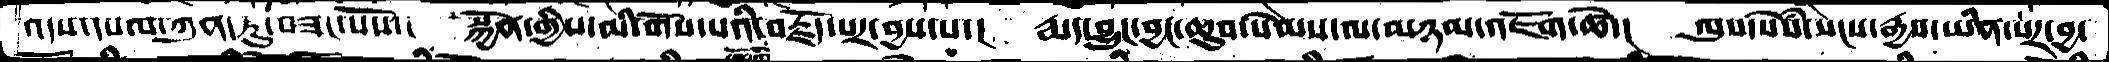འདས་དཔལ་ཀུན་ཏུ་བཟང་པོས་།  སྐྱོན་གྱིས་མི་གོས་པའི་བརྗོད་པར་བྱས་པ་།  རྨད་བྱུང་བྱང་ཆུབ་སེམས་ལ་མཉམ་འཇོག་ཚེ་།  ལུས་སེཾས་སངས་རྒྱས་ཡིན་པར་བྱ་
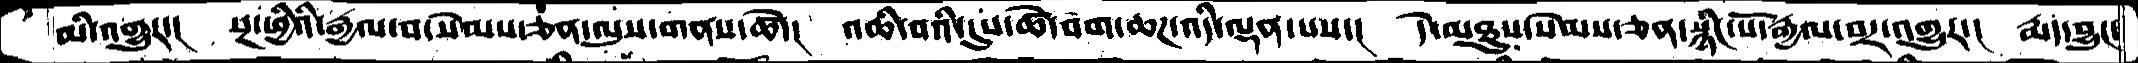མི་འགྱུར་།  སྔ་ཕྱིའི་རྒྱལ་བ་སེམས་ཅན་ལུས་གནས་ཚེ་།  འཆི་བའི་དུས་ཚེ་བག་ཆཌ་འདི་ལྡན་པས་།  དེ་མཐུས་སེམས་ཅན་སྙིང་པོ་རྒྱལ་བར་འགྱུར་།  རྨད་བྱུང་
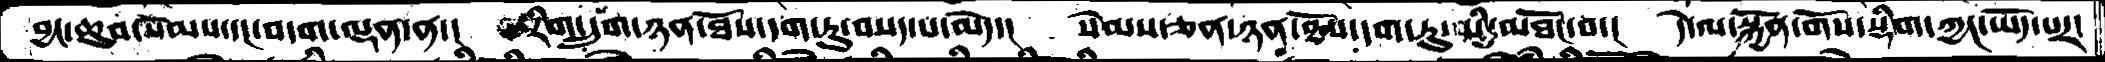བྱང་ཆུབ་སེམས་དང་བདག་ལྡན་ན་།  རིག་དྲུག་ཉན་ཐོས་དག་ཏུ་བསད་པ་མེད་།  སེམས་ཅན་ཉན་ཐོས་དག་ཏུ་མི་མཐོང་བ་།  དེ་ལ་སྐྱོན་གོས་སྡིག་ཀྱང་ཡོད་པར་
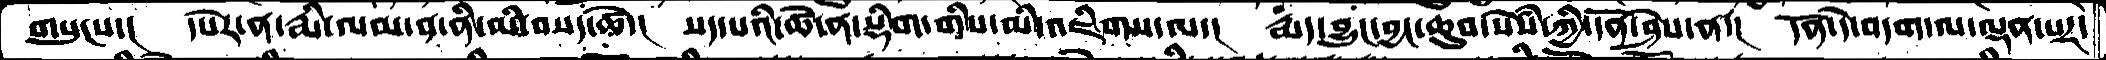གསུངས་།   དཔེར་ན་རྨི་ལམ་ན་ནི་མི་བསད་ཚེ་།  སད་པའི་ཚེ་ན་སྡིག་གིས་མི་འཇིགས་ལ་།  རྨད་བྱུང་བྱང་ཆུབ་སེཾས་ཀྱི་དོན་ཤེས་ན་།  དོན་དེ་བདག་ལ་ལྡན་པར་
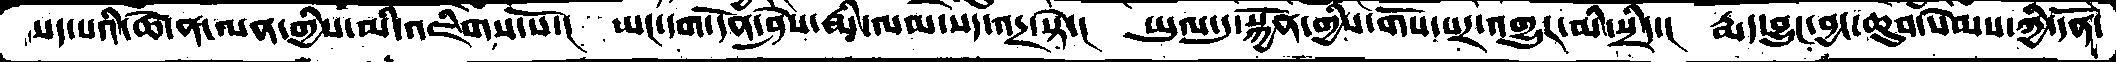སད་པའི་ཚེ་ན་ལན་གྱིས་མི་འཇིགས་སོ་།  ཡང་དག་དོན་ཤེས་རྨི་ལམ་སད་འདྲ་སྟེ་།  ཡུལ་དུ་སྐྱོན་གྱིས་གོས་པར་འགྱུར་མི་སྲིད་། རྨད་བྱུང་བྱང་ཆུབ་སེམས་ཀྱི་དོན་
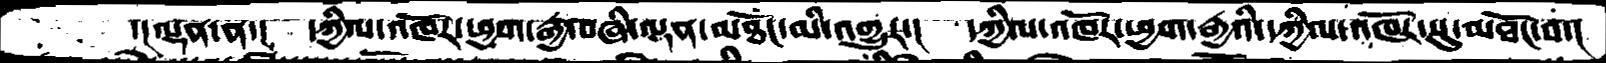་།ལྡན་ན་།  དཀྱིལ་འཁོར་ཕྱག་རྒྱ་བཞི་ལྡན་མཐོང་མི་འགྱུར་།  དཀྱིལ་འཁོར་ཕྱག་རྒྱའི་དཀྱིལ་འཁོར་སུ་མཐོང་བ་།
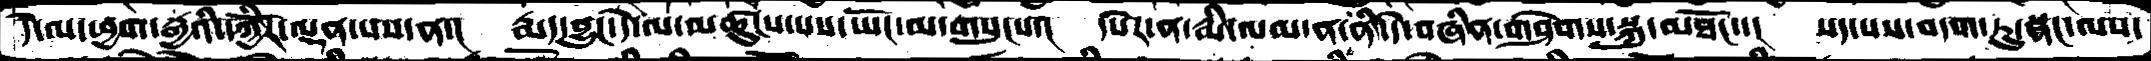དེ་ལ་ཕྱག་རྒྱའི་དཀྱིོར་ལྡན་པས་ན་།   རྨད་བྱུང་དེ་ལ་མཚུངས་པས་ཡོང་མ་གསུང་་།   དཔེར་ན་རྨི་ལམ་ན་ནི་དེ་བཞིན་གཤེགས་སྐུ་མཐོང་་།    སད་པས་བདག་ཏུ་སྣང་ལས་
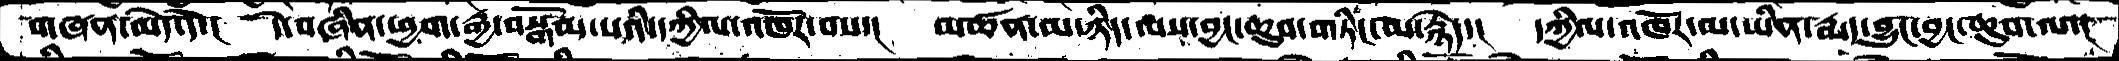གཞན་མེེད་དོ་།   དེ་བཞིན་ཕྱག་རྒྱ་བསྒོམ་པའི་དཀྱིལ་འཁོར་བས་།   མཚན་མ་ཉིད་ལས་བྱང་ཆུབ་གཏིང་མ་རྙེད་།   དཀྱིལ་འཁོར་མ་ཡིན་རྨད་བྱུང་བྱང་ཆུབ་ལ་།
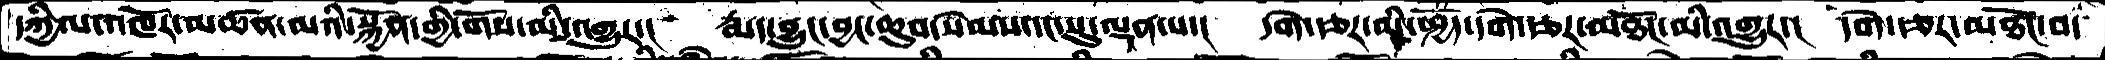དཀྱིལ་འཁོར་མཚན་མའི་སྐྱོན་གྱི་གོས་མི་འགྱུར་།    རྨད་བྱུང་བྱང་ཆུབ་སེམས་དང་སུ་ལྡན་པ་།    དགེ་རྩར་མི་སྤྱོད་དགེ་རྩར་མཐོང་མི་འགྱུར་།   དགེ་རྩར་མཐོང་བ་
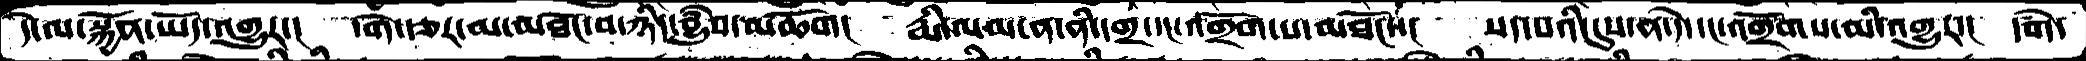དེ་ལ་སྐྱོན་ཡོད་འགྱུར་།  དགེ་རྩར་མ་མཐོང་བ་ཉིད་བྱུཾབ་མཆོག།  རྨི་ལམ་ན་ནི་དགྲ་དང་འགྲོག་ས་མཐོང་་།  སད་པའི་དུས་ན་དེ་དང་འགྲོགས་མི་འགྱུར་།  དགེ་
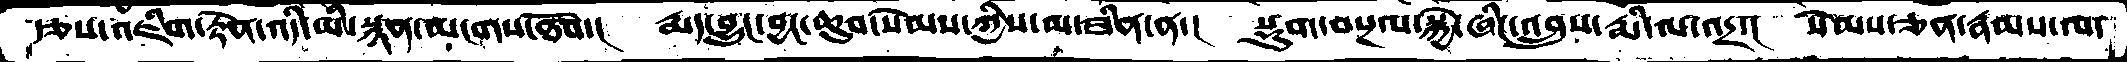རྩས་འཇིག་རྟེན་འདི་ཡི་སྙན་མངགས་ཐོབ་།  རྨད་བྱུང་བྱང་ཆུབ་སེམས་ཀྱིས་མ་ཟིན་ན་།  སྡུག་བསྔལ་སྐྱེ་ཞིང་འབྲུས་རྨི་ལ་འདྲ་།  སེམས་ཅན་རྣམས་ལ་
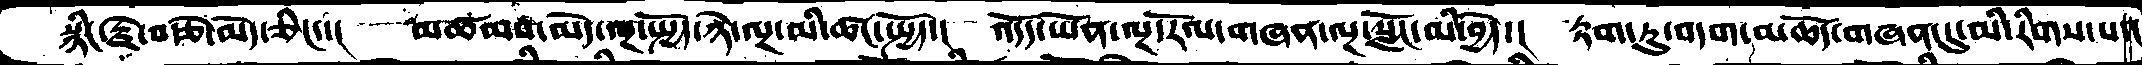སྙིང་རྗེ་བརྩེ་མེད་ཅིང་་།    མཚམས་མེད་ལྔ་སྤྱོད་ཉེ་ལྔ་མི་ཚང་སྤྱོད་།   འདོད་ཡོན་ལྔ་རོལ་གཞན་ལྔ་སློང་མི་བྱེད་།   རྟག་ཏུ་བདག་མཆོད་གཞན་དུ་མི་རིགས་པ་།
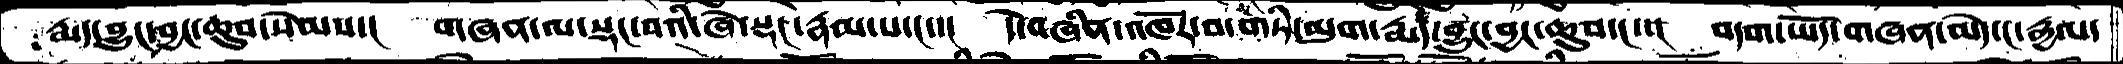རྨད་བྱུང་བྱང་ཆུབ་སེམས་།  གཞན་ལ་སྡང་བའི་ཞེ་སྡང་རྣམ་པ་དང་་།  དེ་བཞིན་འཁོར་བ་གཏི་མུག་རྨད་བྱུང་བྱང་ཆུབ་ང་་།   བདག་ཡོད་གཞན་མེད་ང་རྒྱལ་
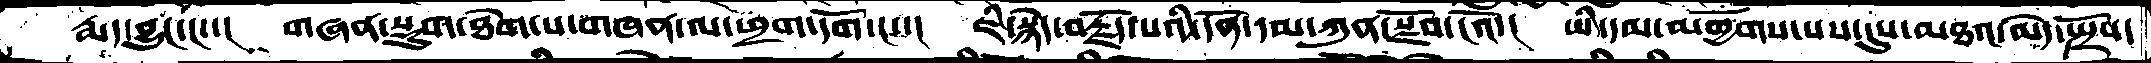རྨད་བྱུང་ང་་།   གཞན་སྡུག་ཐེག་པ་གཞན་ལ་ཕྲག་དོག་ང་་།  ཇི་སྙེད་བརྗོད་པའི་དོན་དམ་ཀུན་སྫོབ་ངའོ་།  ཡི་དམ་མགྱོགས་པས་དུས་མཐའ་མེད་སྤྲོས་
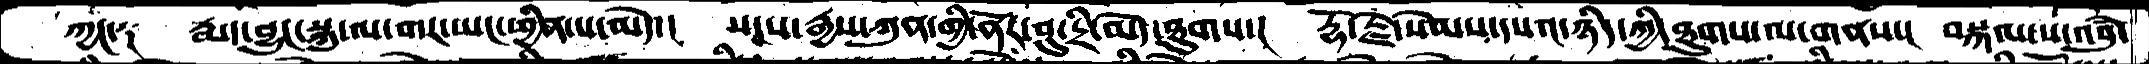ཀྱང༑   རྨད་བྱུང་སྐུ་ལ་གར་ཡང་ཕྱིན་པ་མེད་།  སངས་རྒྱས་ཀུན་གྱི་ནོར་བུ་དྲི་མེད་ཐུགས་།   རྡོ་རྗེ་སེམས་དཔའ་ཉིད་ཀྱི་ཐུགས་ལ་གནས་།  བསྐལ་པ་འབུཾ་
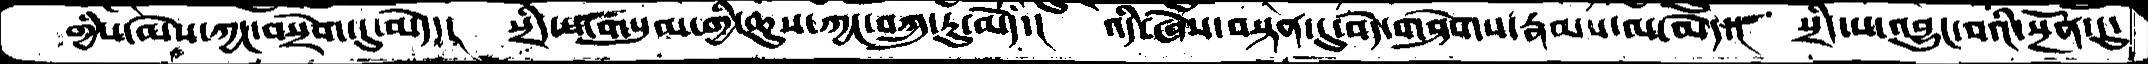གྱིས་མེས་ཀྱང་བསྲེག་དུ་མེད་།  སྲིད་པ་གསུམ་གྱི་ཆུས་ཀྱང་བཀྲུ་ཏུ་མེད་།  འདི་ཞེས་བསྟན་དུ་བདེ་གཤེགས་རྣམས་ལ་མེད་།  སྲིད་པ་འབྱུང་བའི་སྔོན་དུ་
